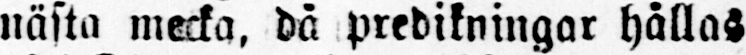nästa mecka, då predikningar hållas
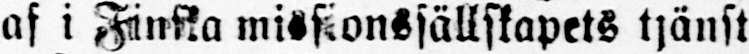af i Finska missionssällskapets tjänst
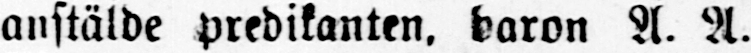anstälde predikanten, baron A. A.
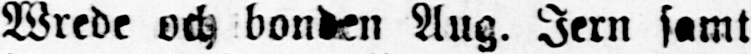Wrede och bonben Aug. Jern samt
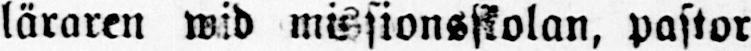läraren wid missionsskolan, pastor
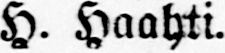H. Haahti.
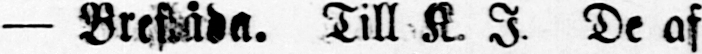— Breflåda. Till K. I. De af
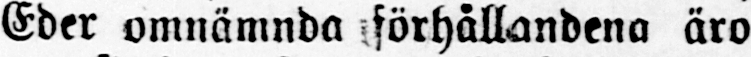Eder omnämnda förhållandena äro
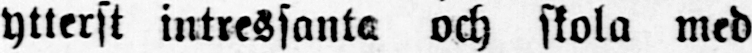ytterst intressanta och skola med
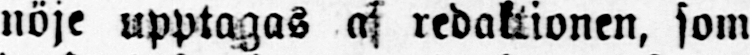nöje upptagas af redaktionen, som
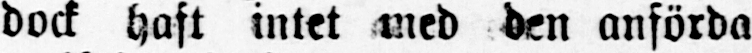dock haft intet med ben anförda
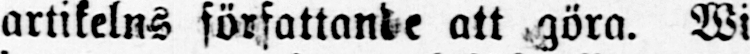artikelns författande att göra. Wi
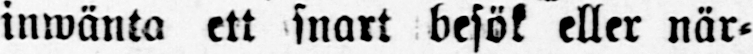inwänta ett snart besök eller när-
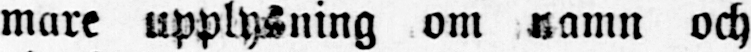mare upplysning om namn och
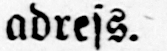adress.
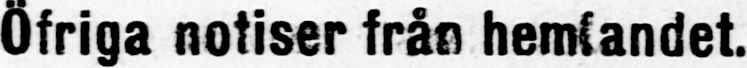Öfriga notiser från hemlandet.
